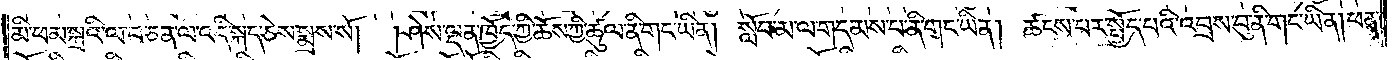མི་ཕམ་སྐྲའི་ལ་བ་ཅན་ལ་འདི་སྐད་ཅེས་སྨྲས་སོ། །ཤེས་ལྡན་ཁྱོད་ཀྱི་ཆོས་ཀྱི་ཚུལ་ནི་གང་ཡིན། སློབ་མ་ལ་གདམས་པ་ནི་གང་ཡིན། ཚངས་པར་སྤྱོད་པའི་འབྲས་བུ་ནི་གང་ཡིན། ཕན་
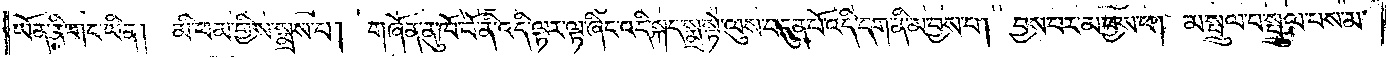ཡོན་ནི་གང་ཡིན།  མི་ཕམ་གྱིས་སྨྲས་པ། གཞོན་ནུ་ཁོ་བོ་ནི་འདི་ལྟར་ལྟ་ཞིང་འདི་སྐད་སྨྲ་སྟེ་ལུས་བདུན་པོ་འདི་དག་ནི་མ་བྱས་པ། བྱས་པར་མ་བྱས་པ། མ་སྤྲུལ་པ་སྤྲུལ་པས་མ་
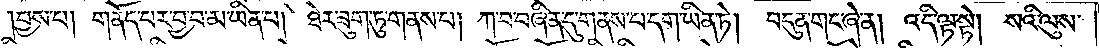།བྱས་པ། གནོད་པར་བྱ་བ་མ་ཡིན་པ། ཐེར་ཟུག་ཏུ་གནས་པ། ཀ་བ་བཞིན་དུ་གནས་པ་དག་ཡིན་ཏེ།  བདུན་གང་ཞེ་ན། འདི་ལྟ་སྟེ།  སའི་ལུས་
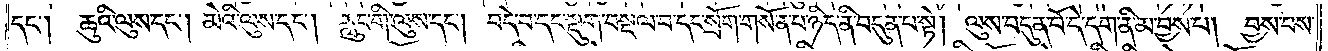དང༌།  ཆུའི་ལུས་དང༌། མེའི་ལུས་དང༌། རླུང་གི་ལུས་དང༌། བདེ་བ་དང་སྡུག་བསྔལ་བ་དང་སྲོག་གསོན་པ་ཉིད་ནི་བདུན་པ་སྟེ། ལུས་བདུན་པོ་དེ་དག་ནི་མ་བྱས་པ། བྱས་པས་
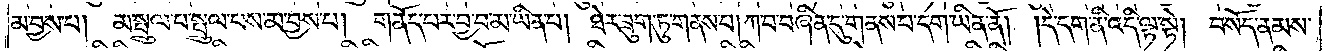མ་བྱས་པ། མ་སྤྲུལ་པ་སྤྲུལ་པས་མ་བྱས་པ། གནོད་པར་བྱ་བ་མ་ཡིན་པ། ཐེར་ཟུག་ཏུ་གནས་པ། ཀ་བ་བཞིན་དུ་གནས་པ་དག་ཡིན་ནོ། །དེ་དག་ནི་འདི་ལྟ་སྟེ། བསོད་ནམས་
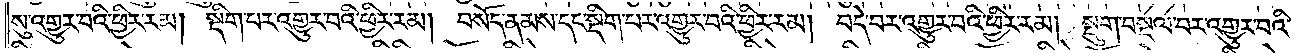སུ་འགྱུར་བའི་ཕྱིར་རམ། སྡིག་པར་འགྱུར་བའི་ཕྱིར་རམ། བསོད་ནམས་དང་སྡིག་པར་འགྱུར་བའི་ཕྱིར་རམ། བདེ་བར་འགྱུར་བའི་ཕྱིར་རམ། སྡུག་བསྔལ་བར་འགྱུར་བའི་
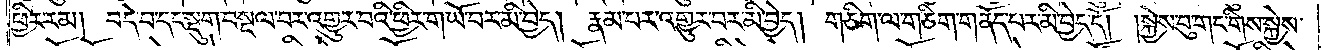ཕྱིར་རམ། བདེ་བ་དང་སྡུག་བསྔལ་བར་འགྱུར་བའི་ཕྱིར་གཡོ་བར་མི་བྱེད། རྣམ་པར་འགྱུར་བར་མི་བྱེད། གཅིག་ལ་གཅིག་གནོད་པར་མི་བྱེད་དོ། །སྐྱེས་བུ་གང་གིས་སྐྱེས་
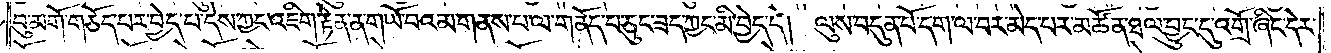བུ་མགོ་གཅོད་པར་བྱེད་པ་དེས་ཀྱང་འཇིག་རྟེན་ན་གཡོ་བའམ་གནས་པ་ལ་གནོད་པ་ཅུང་ཟད་ཀྱང་མི་བྱེད་དེ། ལུས་བདུན་པོ་དག་ལ་བར་མེད་པར་མཚོན་ཐལ་བྱུང་དུ་འགྲོ་ཞིང་དེར་
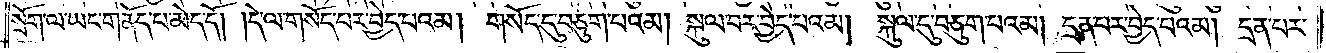སྲོག་ལ་ཡང་གནོད་པ་མེད་དོ། །དེ་ལ་གསོད་པར་བྱེད་པའམ། གསོད་དུ་བཅུག་པའམ། སྐུལ་བར་བྱེད་པའམ། སྐུལ་དུ་བཅུག་པའམ། དྲན་པར་བྱེད་པའམ། དྲན་པར་
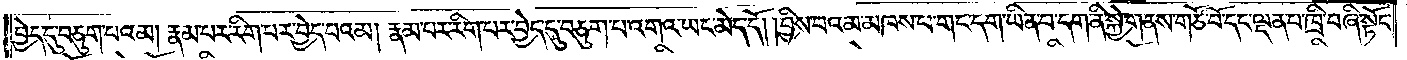བྱེད་དུ་བཅུག་པའམ། རྣམ་པར་རིག་པར་བྱེད་པའམ། རྣམ་པར་རིག་པར་བྱེད་དུ་བཅུག་པ་འགའ་ཡང་མེད་དོ། །བྱིས་བའམ་མཁས་པ་གང་དག་ཡིན་བ་དག་ནི་སྐྱེ་གནས་གཙོ་བོ་དང་ལྡན་པ་ཁྲི་བཞི་སྟོང་
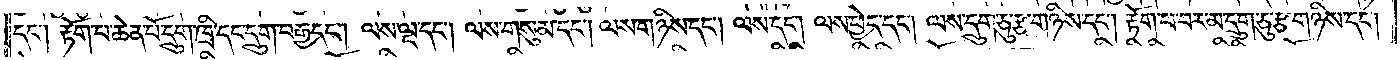དང༌། རྟོག་པ་ཆེན་པོ་དྲུག་ཁྲི་དང་དྲུག་བརྒྱ་དང༌། ལས་ལྔ་དང༌། ལས་གསུམ་དང༌། ལས་གཉིས་དང༌། ལས་དང༌། ལས་བྱེད་དང༌། ལས་དྲུག་ཅུ་རྩ་གཉིས་དང༌། རྟོག་པ་བར་མ་དྲུག་ཅུ་རྩ་གཉིས་དང༌།
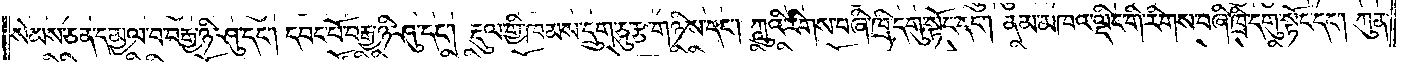སེམས་ཅན་དམྱལ་བ་བརྒྱ་ཉི་ཤུ་དང༌། དབང་པོ་བརྒྱ་ཉི་ཤུ་དང༌། རྡུལ་གྱི་ཁམས་དྲུག་ཅུ་རྩ་གཉིས་དང༌། ཀླུའི་རིགས་བཞི་ཁྲི་དགུ་སྟོང་དང༌། ནམ་མཁའ་ལྡིང་གི་རིགས་བཞི་ཁྲི་དགུ་སྟོང་དང༌། ཀུན་
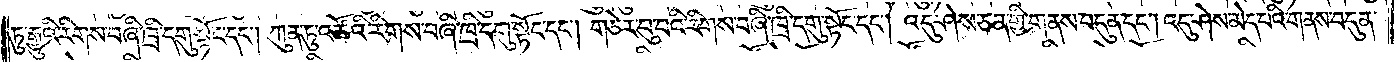ཏུ་རྒྱུའི་རིགས་བཞི་ཁྲི་དགུ་སྟོང་དང༌། ཀུན་ཏུ་འཚོའི་རིགས་བཞི་ཁྲི་དགུ་སྟོང་དང༌། གཅེར་བུ་བའི་རིགས་བཞི་ཁྲི་དགུ་སྟོང་དང༌། འདུ་ཤེས་ཅན་གྱི་གནས་བདུན་དང༌། འདུ་ཤེས་མེད་པའི་གནས་བདུན་
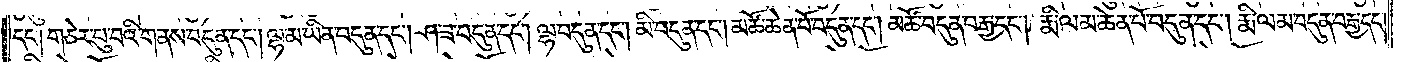དང༌། གཅེར་པུ་བའི་གནས་བདུན་དང༌། ལྷ་མ་ཡིན་བདུན་དང༌། ཤ་ཟ་བདུན་དང༌། ལྷ་བདུན་དང༌། མི་བདུན་དང༌། མཚོ་ཆེན་པོ་བདུན་དང༌། མཚོ་བདུན་བརྒྱ་དང༌། རྨི་ལམ་ཆེན་པོ་བདུན་དང༌། རྨི་ལམ་བདུན་བརྒྱ་དང༌།
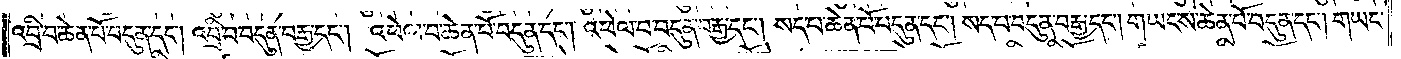འབྲི་བ་ཆེན་པོ་བདུན་དང༌། འབྲི་བ་བདུན་བརྒྱ་དང༌། འཕེལ་བ་ཆེན་པོ་བདུན་དང༌། འཕེལ་བ་བདུན་བརྒྱ་དང༌། སད་པ་ཆེན་པོ་བདུན་དང༌། སད་པ་བདུན་བརྒྱ་དང༌། གཡང་ས་ཆེན་པོ་བདུན་དང༌། གཡང་
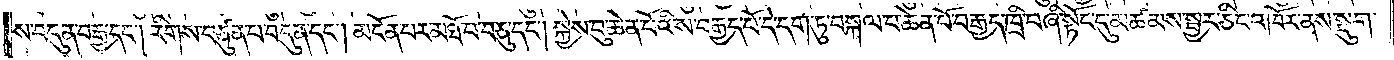ས་བདུན་བརྒྱ་དང༌། རིགས་བཙུན་པ་བདུན་དང༌། མངོན་པར་མཐོ་བ་བཅུ་དང༌། སྐྱེས་བུ་ཆེན་པོའི་ས་བརྒྱད་པོ་དེ་དག་ཏུ་བསྐལ་པ་ཆེན་པོ་བརྒྱད་ཁྲི་བཞི་སྟོང་དུ་མཚམས་སྦྱར་ཅིང་འཁོར་ནས་སྡུག་
